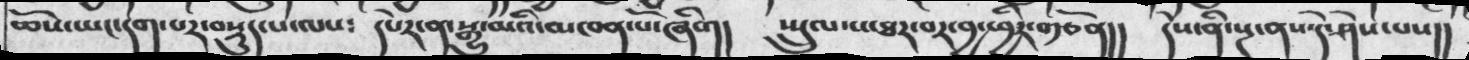ཆོས་ཡང་དག་པར་བསྡུད་པ་ལས༴   དཔེར་ན་སྒྱུ་མའི་མཁན་པོ་ཞིག།    སྤྲུལ་པ་ཐར་བར་བྱ་ཕྱིར་བརྩོན།།    དེས་ནི་སྔ་ནས་དེ་ཤེས་པས།།
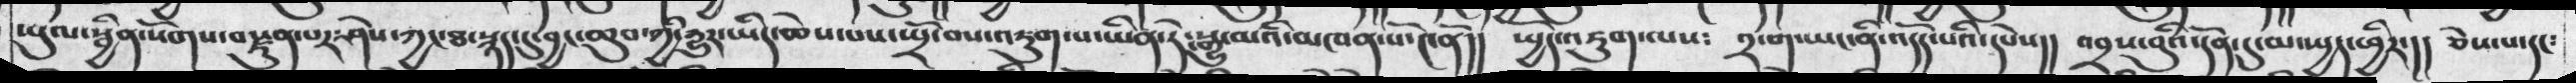ཡུལ་སྦྱིན་སོགས་བརྫུན་པར་ཤེས་ཀྱང་ཐ་སྙད་དུ་བྱང་ཆུབ་ཀྱི་དྱུར་ཡིད་ཆེས་པས་སྤྲོ་བས་འཇུག་པ་ཡིན་ཏེ༴སྒྱུ་མའི་མཁན་པོ་༤ནོ།།  སྤྱོད་འཇུག་ལས༴  ༢་ག་ཡང་ནི་འདོད་པའི་དཔེས།།  འབྲས་བུའི་དོན་དུ་མ་སྤྱད་ཕྱིར་།།  ཅེས་པ་དང༴
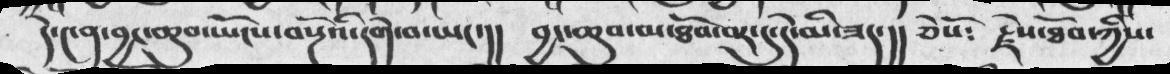དེ་༤ན་བྱང་ཆུབ་ཡོངས་བསྔོའི་དགེ་བ་ཡང་།།  བྱང་ཆུབ་མ་ཐོབ་བར་དུ་དེ་མི་ཟད་།།  ཅེསོ༴  རྗེས་ཐོབ་ཀྱིས་
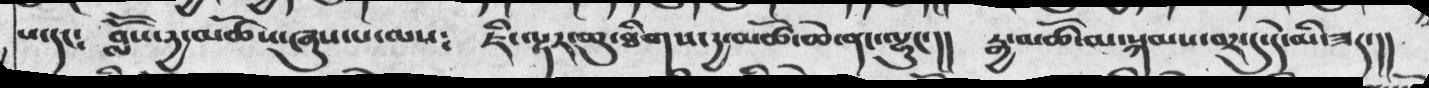པ་དང༴   བློོས་དྱ་མཚོས་ཞུས་པ་ལས༴   ཇི་ལྟར་ཆུ་ཐིགས་དྱ་མཚོ་ཆེ་ནང་ལྷུང་།།   རྒྱ་མཚོ་མ་སྐམས་བར་དུ་དེ་མི་ཟད་།།
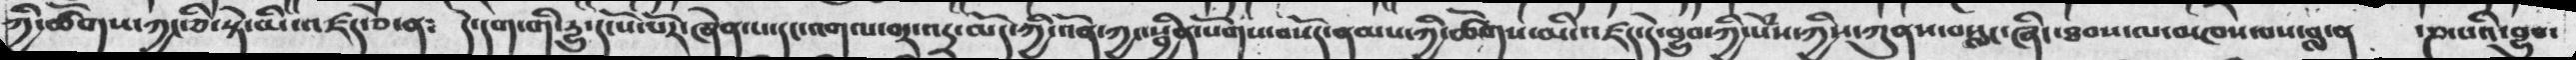ཀྱི་ཚོགས་ཀྱང་ཅི་སྟེ་མི་འཛད་ཅེ་ན༴   དེ་དག་གི་དྱུ་དངོས་པོར་ཞེན་པ་དང་འགལ་བར་འདྲ་མོད་ཀྱི་འོན་ཀྱང་སྦྱིན་སོགས་བསོད་ནམས་ཀྱི་ཚོགས་མི་འཛད་དེ་བྱུབ་ཀྱི་སེཾས་ཀྱིས་ཀུནས་བསླང་ཞིང་ཐབས་ལ་མཁས་བས་བླ་ན་ཎ་པའི་བྱུབ་
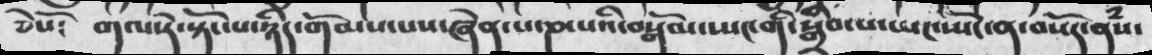ཅེསོ༴   གལ་ཏེ་སྟོང་པ་ཉིད་གོམས་པས་ཞེན་པ་ཎ་པའི་བསྒོམ་སྤང་གི་སྒྲིབ་པ་ཡང་སྤོང་ན་བསོད་ནཾས་
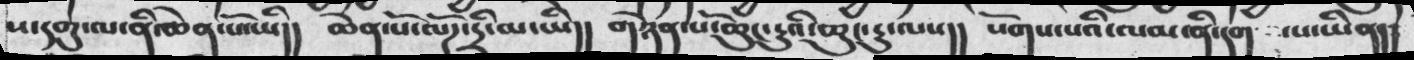ས་དགུ་ལ་ནི་ཆེན་པོ་ཡི།།  ཆེན་པོ་ལོཌ་དྲི་མ་ཡི།།  གཉེན་པོ་ཆུང་ངུའི་ཆུང་ངུ་ལས།།  སོགས་པའི་ལམ་ནི་དག་  པ་ཡིན།།
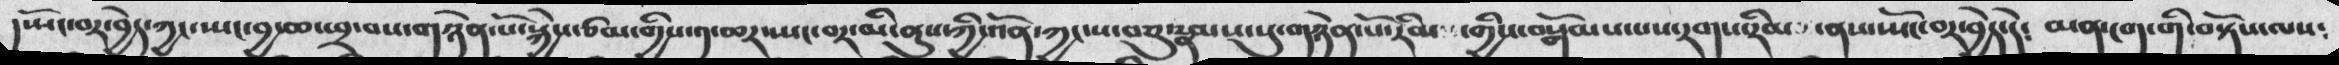།  སྤོང་བར་བྱེད་ཀྱང་སྤང་བྱ་ཆ་ཕྲ་བས་གཉེན་པོ་སྐྱེས་ཙམ་གྱིས་༡་ཆར་སྤང་བར་མི་ནུས་ཀྱི་འོན་ཀྱང་ས་བཅུ་རྣམས་སུ་གཉེན་པོ་རིམ་གྱིས་བསྒོམས་པས་རགས་རིམ་ ནས་སྤོང་བར་བྱེད་དེ༴   མན་ངག་གི་བསྟོཔ་ལས༴
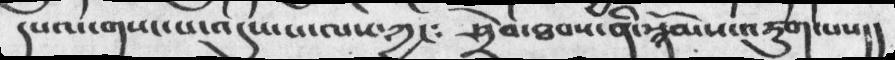དཔལ་གསང་པ་འདུས་པ་ལས༴ཀྱང༴    ཤྲེབ་ཐབས་ནི་སྙོམས་འཇུག་པས།།
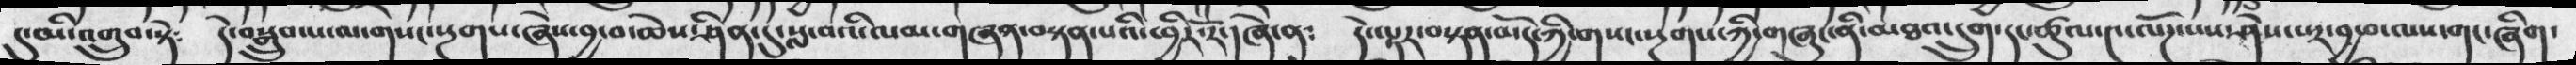དུ་མི་འགྲུབ་སྟེ༴     དེ་བསྒྲུབ་པ་མ་གསང་སྔགས་ཞེས་བྱ་བ་ཆེས་ཤིན་དུ་སླ་བའི་ལམ་གཞན་བསྟན་པའི་ཕྱིར་རོ་།ཞེ་ན༴   དེ་ལྟར་བསྟན་མདོ་ཀྱི་གསང་སྔགས་ཀྱི་གཞུང་ནི་མཐའ་དྲུག་དང་ཚུལ་༤་ལོཌ་པས་ཤེས་པར་བྱ་བ་ལས་གང་ཞིག་
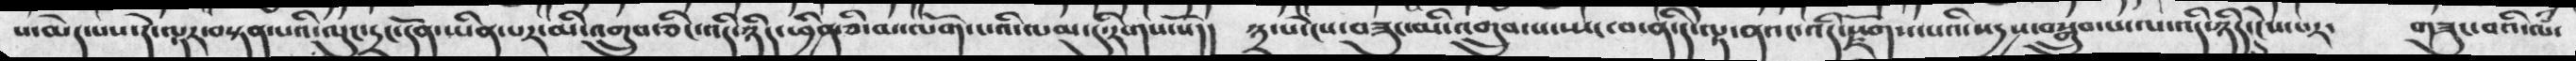པ་མེད་པས་དེ་ལྟར་བསྟན་པའི་ལུང་དྲང་དོན་ཡིན་པར་མི་འགྲུབ་ཅིང་འདི་ཉིད་ཕྱིན་ཅི་མ་ལོག་པའི་ལམ་དུ་རིགས་སོ།།  ༣་པ་ངེས་བཟུང་མི་འགྲུབ་པ་ཡང་བ་ནི་དེ་ལྟ་ནའང་འདི་རྫོགས་པའི་སདྱས་བསྒྲུབ་པ་ལ་འདི་ཉིད་ངེས་པར་  གཟུང་བའི་ལཾ་
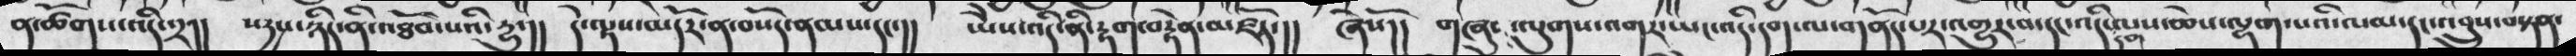ན་ཚོགས་འདི་༢།།  སདྱས་ཉིད་ན་འཐོབ་པའི་དྱུ་།།  དེ་ལྟས་མདོར་ན་བསོད་ནམས་དང་།།  ཡེེས་འདི་ནི་རྟག་བརྟེན་མཛོད་།།   ཞེསོ།།  གཞུང་ལུགས་འགར་ཡང་འདི་དག་ལ་གནོད་པར་འགྱུར་བ་དང་འདི་དག་ལས་ཆེས་ལྷག་པའི་ལམ་དང་འབྲུས་བསྟན་
